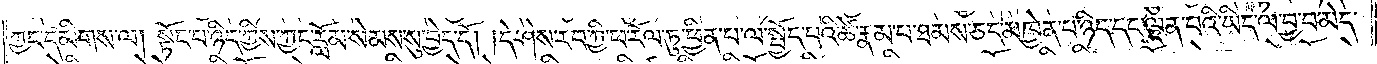ཀྱང་དམིགས་ལ། སྟོང་པ་ཉིད་ཀྱིས་ཀྱང་རློམ་སེམས་སུ་བྱེད་དོ། །དེ་ཤེས་རབ་ཀྱི་ཕ་རོལ་ཏུ་ཕྱིན་པ་ལ་སྤྱོད་པའི་ཚེ་རྣམ་པ་ཐམས་ཅད་མཁྱེན་པ་ཉིད་དང་ལྡན་པའི་ཡིད་ལ་བྱ་བ་མེད་
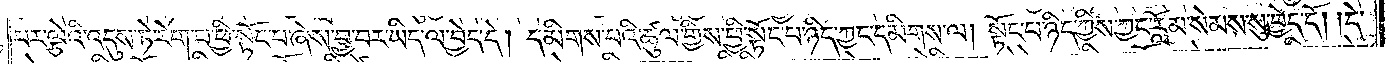པར་ལྕེའི་འདུས་ཏེ་རེག་པ་ཕྱི་སྟོང་པ་ཞེས་བྱ་བར་ཡིད་ལ་བྱེད་དེ། དམིགས་པའི་ཚུལ་གྱིས་ཕྱི་སྟོང་པ་ཉིད་ཀྱང་དམིགས་ལ། སྟོང་པ་ཉིད་ཀྱིས་ཀྱང་རློམ་སེམས་སུ་བྱེད་དོ། །དེ་
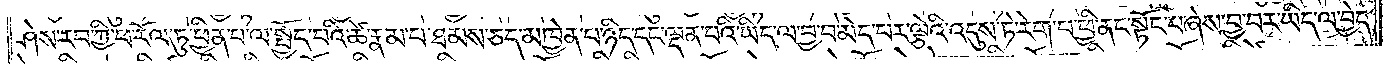ཤེས་རབ་ཀྱི་ཕ་རོལ་ཏུ་ཕྱིན་པ་ལ་སྤྱོད་པའི་ཚེ་རྣམ་པ་ཐམས་ཅད་མཁྱེན་པ་ཉིད་དང་ལྡན་པའི་ཡིད་ལ་བྱ་བ་མེད་པར་ལྕེའི་འདུས་ཏེ་རེག་པ་ཕྱི་ནང་སྟོང་པ་ཞེས་བྱ་བར་ཡིད་ལ་བྱེད་
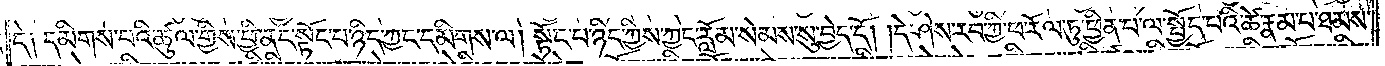དེ༑ དམིགས་པའི་ཚུལ་གྱིས་ཕྱི་ནང་སྟོང་པ་ཉིད་ཀྱང་དམིགས་ལ། སྟོང་པ་ཉིད་ཀྱིས་ཀྱང་རློམ་སེམས་སུ་བྱེད་དོ། །དེ་ཤེས་རབ་ཀྱི་ཕ་རོལ་ཏུ་ཕྱིན་པ་ལ་སྤྱོད་པའི་ཚེ་རྣམ་པ་ཐམས་
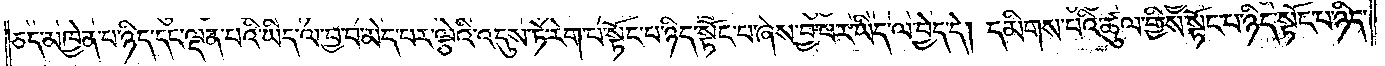ཅད་མཁྱེན་པ་ཉིད་དང་ལྡན་པའི་ཡིད་ལ་བྱ་བ་མེད་པར་ལྕེའི་འདུས་ཏེ་རེག་པ་སྟོང་པ་ཉིད་སྟོང་པ་ཞེས་བྱ་བར་ཡིད་ལ་བྱེད་དེ། དམིགས་པའི་ཚུལ་གྱིས་སྟོང་པ་ཉིད་སྟོང་པ་ཉིད་
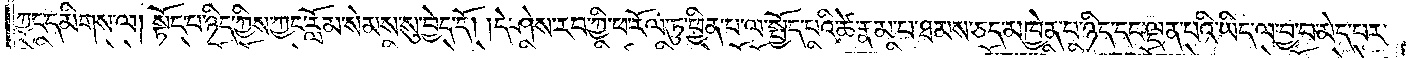ཀྱང་དམིགས་ལ། སྟོང་པ་ཉིད་ཀྱིས་ཀྱང་རློམ་སེམས་སུ་བྱེད་དོ། །དེ་ཤེས་རབ་ཀྱི་ཕ་རོལ་ཏུ་ཕྱིན་པ་ལ་སྤྱོད་པའི་ཚེ་རྣམ་པ་ཐམས་ཅད་མཁྱེན་པ་ཉིད་དང་ལྡན་པའི་ཡིད་ལ་བྱ་བ་མེད་པར་
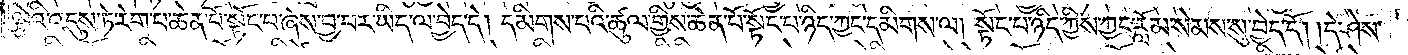ལྕེའི་འདུས་ཏེ་རེག་པ་ཆེན་པོ་སྟོང་པ་ཞེས་བྱ་བར་ཡིད་ལ་བྱེད་དེ། དམིགས་པའི་ཚུལ་གྱིས་ཆེན་པོ་སྟོང་པ་ཉིད་ཀྱང་དམིགས་ལ། སྟོང་པ་ཉིད་ཀྱིས་ཀྱང་རློམ་སེམས་སུ་བྱེད་དོ། །དེ་ཤེས་
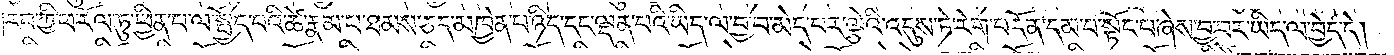རབ་ཀྱི་ཕ་རོལ་ཏུ་ཕྱིན་པ་ལ་སྤྱོད་པའི་ཚེ་རྣམ་པ་ཐམས་ཅད་མཁྱེན་པ་ཉིད་དང་ལྡན་པའི་ཡིད་ལ་བྱ་བ་མེད་པར་ལྕེའི་འདུས་ཏེ་རེག་པ་དོན་དམ་པ་སྟོང་པ་ཞེས་བྱ་བར་ཡིད་ལ་བྱེད་དེ།
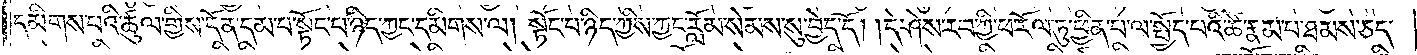དམིགས་པའི་ཚུལ་གྱིས་དོན་དམ་པ་སྟོང་པ་ཉིད་ཀྱང་དམིགས་ལ། སྟོང་པ་ཉིད་ཀྱིས་ཀྱང་རློམ་སེམས་སུ་བྱེད་དོ། །དེ་ཤེས་རབ་ཀྱི་ཕ་རོལ་ཏུ་ཕྱིན་པ་ལ་སྤྱོད་པའི་ཚེ་རྣམ་པ་ཐམས་ཅད་
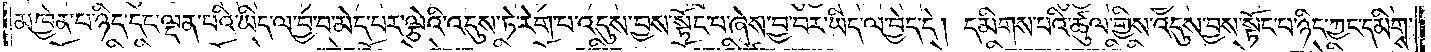མཁྱེན་པ་ཉིད་དང་ལྡན་པའི་ཡིད་ལ་བྱ་བ་མེད་པར་ལྕེའི་འདུས་ཏེ་རེག་པ་འདུས་བྱས་སྟོང་པ་ཞེས་བྱ་བར་ཡིད་ལ་བྱེད་དེ། དམིགས་པའི་ཚུལ་གྱིས་འདུས་བྱས་སྟོང་པ་ཉིད་ཀྱང་དམིགས་
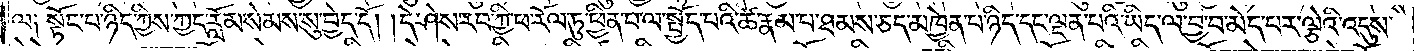ལ༑ སྟོང་པ་ཉིད་ཀྱིས་ཀྱང་རློམ་སེམས་སུ་བྱེད་དོ། །དེ་ཤེས་རབ་ཀྱི་ཕ་རོལ་ཏུ་ཕྱིན་པ་ལ་སྤྱོད་པའི་ཚེ་རྣམ་པ་ཐམས་ཅད་མཁྱེན་པ་ཉིད་དང་ལྡན་པའི་ཡིད་ལ་བྱ་བ་མེད་པར་ལྕེའི་འདུས་
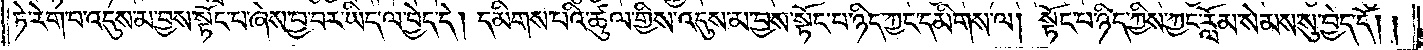ཏེ་རེག་པ་འདུས་མ་བྱས་སྟོང་པ་ཞེས་བྱ་བར་ཡིད་ལ་བྱེད་དེ། དམིགས་པའི་ཚུལ་གྱིས་འདུས་མ་བྱས་སྟོང་པ་ཉིད་ཀྱང་དམིགས་ལ། སྟོང་པ་ཉིད་ཀྱིས་ཀྱང་རློམ་སེམས་སུ་བྱེད་དོ། །
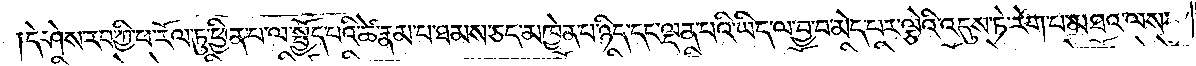དེ་ཤེས་རབ་ཀྱི་ཕ་རོལ་ཏུ་ཕྱིན་པ་ལ་སྤྱོད་པའི་ཚེ་རྣམ་པ་ཐམས་ཅད་མཁྱེན་པ་ཉིད་དང་ལྡན་པའི་ཡིད་ལ་བྱ་བ་མེད་པར་ལྕེའི་འདུས་ཏེ་རེག་པ་མཐའ་ལས་
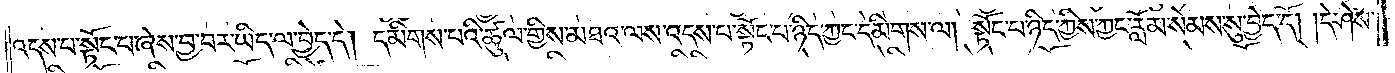འདས་པ་སྟོང་པ་ཞེས་བྱ་བར་ཡིད་ལ་བྱེད་དེ། དམིགས་པའི་ཚུལ་གྱིས་མཐའ་ལས་འདས་པ་སྟོང་པ་ཉིད་ཀྱང་དམིགས་ལ། སྟོང་པ་ཉིད་ཀྱིས་ཀྱང་རློམ་སེམས་སུ་བྱེད་དོ། །དེ་ཤེས་
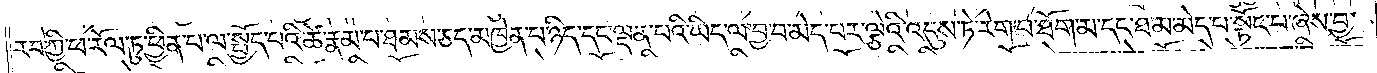རབ་ཀྱི་ཕ་རོལ་ཏུ་ཕྱིན་པ་ལ་སྤྱོད་པའི་ཚེ་རྣམ་པ་ཐམས་ཅད་མཁྱེན་པ་ཉིད་དང་ལྡན་པའི་ཡིད་ལ་བྱ་བ་མེད་པར་ལྕེའི་འདུས་ཏེ་རེག་པ་ཐོག་མ་དང་ཐ་མ་མེད་པ་སྟོང་པ་ཞེས་བྱ་
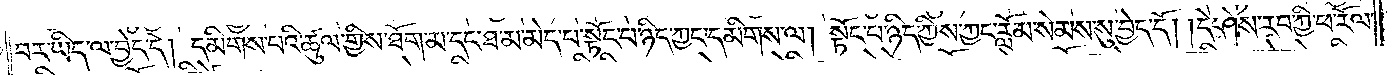བར་ཡིད་ལ་བྱེད་དེ། དམིགས་པའི་ཚུལ་གྱིས་ཐོག་མ་དང་ཐ་མ་མེད་པ་སྟོང་པ་ཉིད་ཀྱང་དམིགས་ལ། སྟོང་པ་ཉིད་ཀྱིས་ཀྱང་རློམ་སེམས་སུ་བྱེད་དོ། །དེ་ཤེས་རབ་ཀྱི་ཕ་རོལ་
